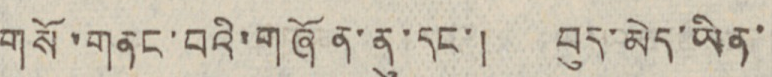གསོ་གནང་བའི་གཞོན་ནུ་དང་། བུད་མེད་ཡིན་
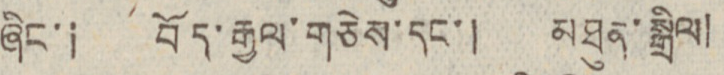ཞིང་། བོད་རྒྱལ་གཅེས་དང་། མཐུན་སྒྲིལ།
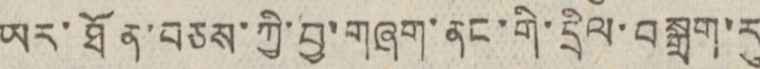ཡར་ཐོན་བཅས་ཀྱི་བྱ་གཞག་ནང་གི་དྲིལ་བསྒྲག་རུ
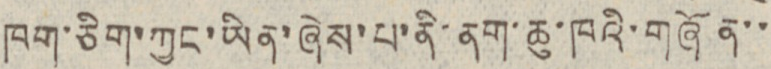ཁག་ཅིག་ཀྱང་ཡིན་ཞེས་པ་ནི་ནག་ཆུ་ཁའི་གཞོན་་
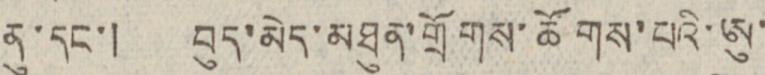ནུ་དང་། བུད་མེད་མཐུན་གྲོགས་ཚོགས་པའི་ཨུ་
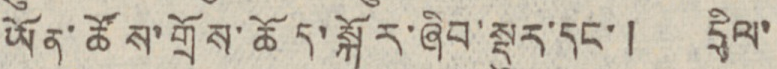ཡོན་ཚོས་གྲོས་ཆོད་སྐོར་ཞིབ་སྡུར་དང་། དྲིལ་
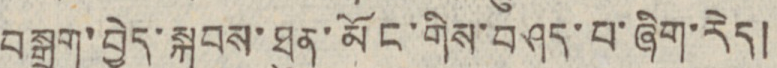བསྒྲག་བྱེད་སྐབས་ཐུན་མོང་གིས་བཤད་པ་ཞིག་རེད།
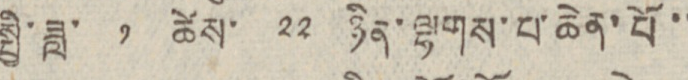སྤྱི་ཟླ་ ༡ ཚེས་ ༢༢ ཉིན་ལྷགས་པ་ཆེན་པོ་་
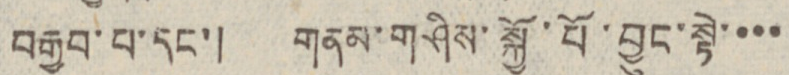བརྒྱབ་པ་དང་། གནམ་གཤིས་སྐྱོ་པོ་བྱུང་སྟེ་་་་
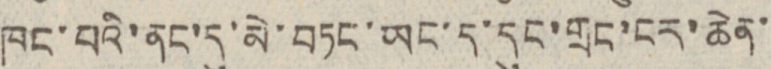ཁང་བའི་ནང་དུ་མེ་བཏང་ཡང་ད་དུང་གྲང་ངར་ཆེན་
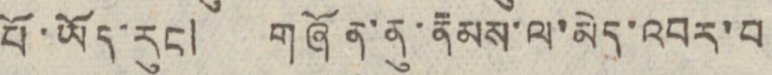པོ་ཡོད་རུང། གཞོན་ནུ་རྣམས་ལ་མེད་འབར་བ
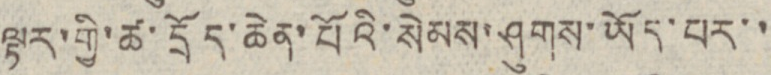ལྟར་གྱི་ཚ་དྲོད་ཆེན་པོའི་སེམས་ཤུགས་ཡོད་པར་་
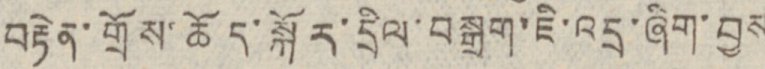བརྟེན་གྲོས་ཆོད་སྐོར་དྲིལ་བསྒྲག་ཇི་འདྲ་ཞིག་བྱས
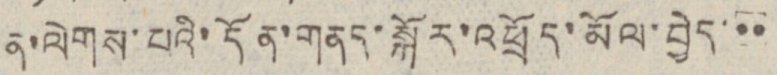ན་ལེགས་པའི་དོན་གནད་སྐོར་འཕྲོད་མོལ་བྱེད་་་
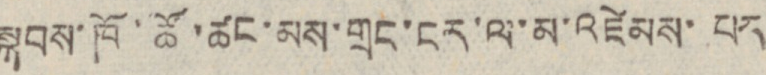སྐབས་ཁོ་ཚོ་ཚང་མས་གྲང་ངར་ལ་མ་འཛེམས་པར
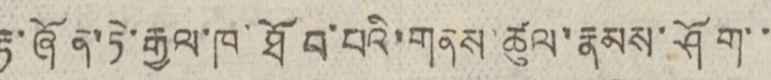རྟ་ཞོན་ཏེ་རྒྱལ་ཁ་ཐོབ་པའི་གནས་ཚུལ་རྣམས་ཤོག་་
